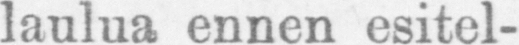Neliäänistä laulua ennen esitel-
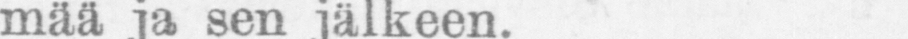mää ja sen jälkeen.
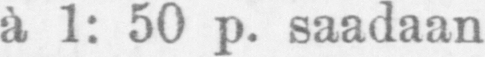Pääsylippuja á 1: 50 p. saadaan
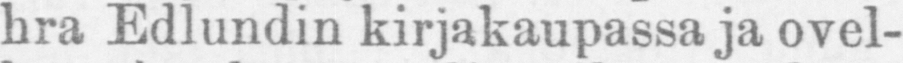hra Edlundin kirjakaupassa ja ovel-
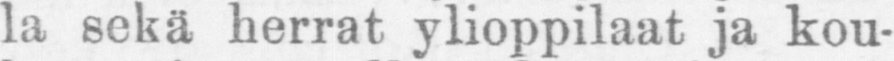la sekä herrat ylioppilaat ja kou-
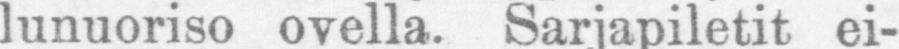lunuoriso ovella. Sarjapiletit ei-
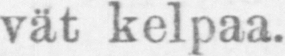vät kelpaa.
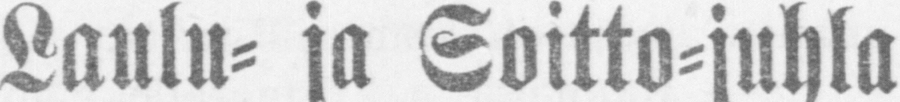Laulu- ja Soitto-juhla
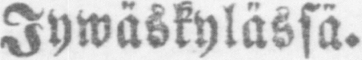Jywäskylässä.
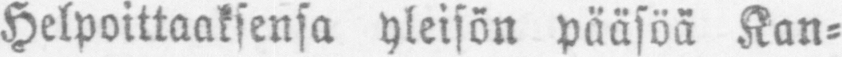Helpoittaaksensa yleisön pääsöä Kan-
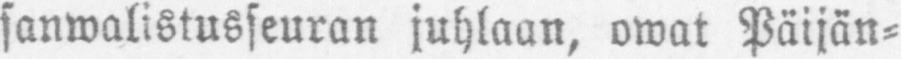sanwalistusseuran juhlaan, owat Päijän-
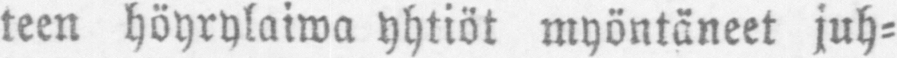teen höyrylaiwa yhtiöt myöntäneet juh-
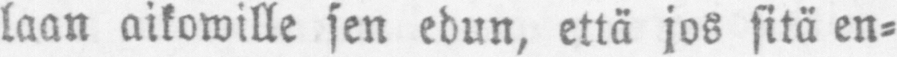laan aikowille sen edun, että jos sitä en-
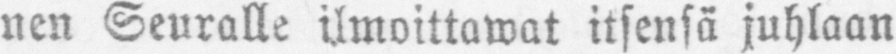nen Seuralle ilmoittawat itsensä juhlaan
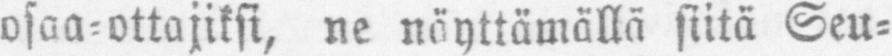osaa-ottajiksi, ne näyttämällä siitä Seu-
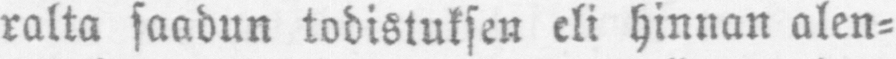ralta saadun todistuksen eli hinnan alen-
